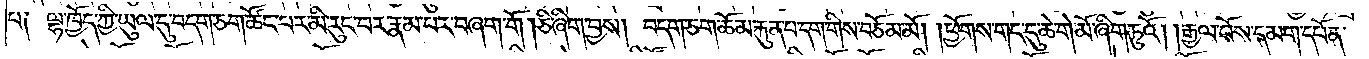པ ༑ ལྷ་ཁྱོད་ཀྱི་ཡུལ་དུ་བདག་ཅག་ཚོང་པར་མི་རུང་བར་རྣམ་པར་བཞག་གོ །ཅི་ཞིག་བྱས། བདག་ཅག་ཆོམ་རྐུན་པ་དག་གིས་བཅོམ་མོ། །ཕྱོགས་གང་དུ་ཆེ་གེ་མེ་ཞིག་ཏུའོ། །རྒྱལ་པོས་དམག་དཔོན་
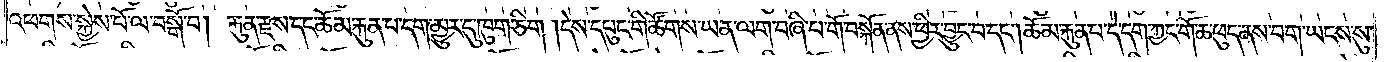འཕགས་སྐྱེས་པོ་ལ་བསྒོ་བ། རྐུན་རྫས་དང་ཆོམ་རྐུན་པ་དག་མྱུར་དུ་ཁུག་ཅིག །དེས་དཔུང་གི་ཚོགས་ཡན་ལག་བཞི་པ་གོ་བསྐོན་ནས་ཕྱིར་བྱུང་བ་དང༌། ཆོམ་རྐུན་པ་དེ་དག་ཀྱང་གོ་ཆ་ཕུད་ནས་བག་ཡངས་སུ་
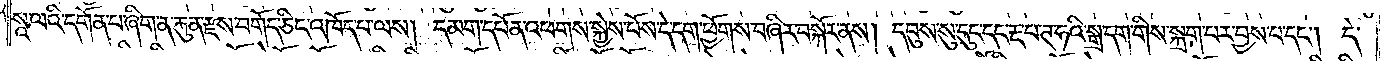སཱ་ལའི་དགོན་པ་ཞིག་ན་རྐུན་རྫས་བགོད་ཅིང་འཁོད་པ་ལས། དམག་དཔོན་འཕགས་སྐྱེས་པོས་དེ་དག་ཕྱོགས་བཞིར་བསྐོར་ནས། དབུས་སུ་དུང་དང་རྔ་པ་ཊ་ཧའི་སྒྲ་དག་གིས་སྐྲག་པར་བྱས་པ་དང༌། དེ་
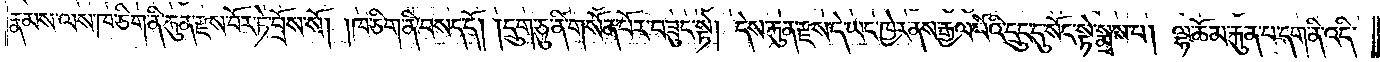རྣམས་ལས་ཁ་ཅིག་ནི་རྐུན་རྫས་བོར་ཏེ་བྲོས་སོ། །ཁ་ཅིག་ནི་བསད་དོ། །དྲུག་ཅུ་ནི་གསོན་པོར་བཟུང་སྟེ། དེས་རྐུན་རྫས་དེ་ཡང་ཁྱེར་ནས་རྒྱལ་པོའི་དྲུང་དུ་སོང་སྟེ་སྨྲས་པ། ལྷ་ཆོམ་རྐུན་པ་དག་ནི་འདི་
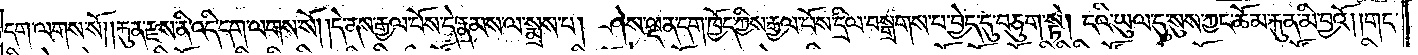དག་ལགས་སོ། །རྐུན་རྫས་ནི་འདི་དག་ལགས་སོ། །དེ་ནས་རྒྱལ་པོས་དེ་རྣམས་ལ་སྨྲས་པ། ཤེས་ལྡན་དག་ཁྱོད་ཀྱིས་རྒྱལ་པོས་དྲིལ་བསྒྲགས་པ་བྱེད་དུ་བཅུག་སྟེ། ངའི་ཡུལ་དུ་སུས་ཀྱང་ཆོམ་རྐུན་མི་བྱའོ། །གང་
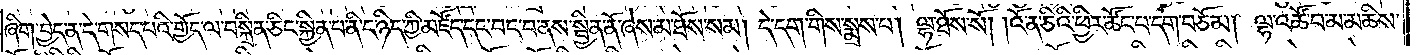ཞིག་བྱེད་ན་དེ་གསད་པའི་གྱོད་ལ་བསྐྲིན་ཅིང་སྐྱིན་པ་ནི་ང་ཉིད་ཀྱི་མཛོད་དང་བང་བ་ནས་སྦྱིན་ནོ་ཞེས་མ་ཐོས་སམ། དེ་དག་གིས་སྨྲས་པ། ལྷ་ཐོས་སོ། །འོ་ན་ཅིའི་ཕྱིར་ཚོང་པ་དག་བཅོམ། ལྷ་འཚོ་བ་མ་མཆིས་
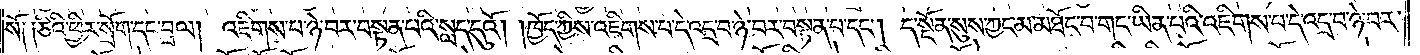སོ༑ ༑ཅིའི་ཕྱིར་སྲོག་དང་བྲལ། འཇིགས་པ་ཉེ་བར་བསྟན་པའི་སླད་དུའོ། །ཁྱོད་ཀྱིས་འཇིགས་པ་དེ་འདྲ་བ་ཉེ་བར་བསྟན་པ་དང༌། ད་སྔོན་སུས་ཀྱང་མ་མཐོང་བ་གང་ཡིན་པའི་འཇིགས་པ་དེ་འདྲ་བ་ཉེ་བར་
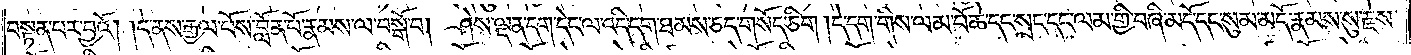བསྟན་པར་བྱའོ། །དེ་ནས་རྒྱལ་པོས་བློན་པོ་རྣམས་ལ་བསྒོ་བ། ཤེས་ལྡན་དག་དེང་ལ་འདི་དག་ཐམས་ཅད་གསོད་ཅིག །དེ་དག་གིས་ལམ་པོ་ཆེ་དང་སྲང་དང་ལམ་གྱི་བཞི་མདོ་དང་སུམ་མདོ་རྣམས་སུ་རྗེས་
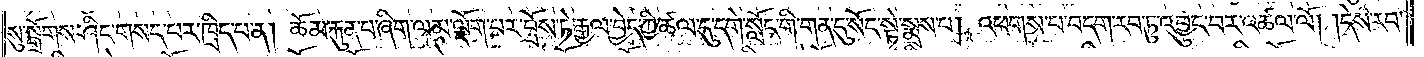སུ་སྒྲོགས་ཤིང་གསད་པར་ཁྲིད་པ་ན། ཆོམ་རྐུན་པ་ཞིག་ལམ་ལྡོག་པར་བྲོས་ཏེ་རྒྱལ་བྱེད་ཀྱི་ཚལ་དུ་དགེ་སློང་གི་གན་དུ་སོང་སྟེ་སྨྲས་པ། འཕགས་པ་བདག་རབ་ཏུ་འབྱུང་བར་འཚལ་ལོ། །དེས་རབ་
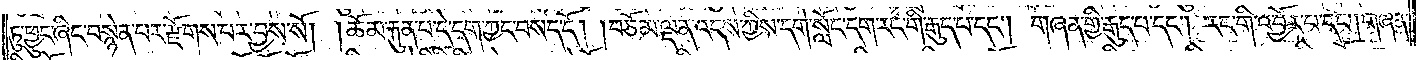ཏུ་ཕྱུང་ཞིང་བསྙེན་པར་རྫོགས་པར་བྱས་སོ། །ཆོམ་རྐུན་པ་དེ་དག་ཀྱང་བསད་དོ། །བཅོམ་ལྡན་འདས་ཀྱིས་དགེ་སློང་དག་རང་གི་རྒུད་པ་དང༌། གཞན་གྱི་རྒུད་པ་དང༌། རང་གི་འབྱོར་པ་དང༌། གཞན་
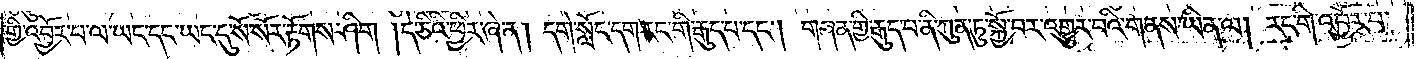གྱི་འབྱོར་པ་ལ་ཡང་དང་ཡང་དུ་སོ་སོར་རྟོགས་ཤིག །དེ་ཅིའི་ཕྱིར་ཞེ་ན། དགེ་སློང་དག་རང་གི་རྒུད་པ་དང༌། གཞན་གྱི་རྒུད་པ་ནི་ཀུན་ཏུ་སྐྱོ་བར་འགྱུར་བའི་གནས་ཡིན་ལ། རང་གི་འབྱོར་བ་
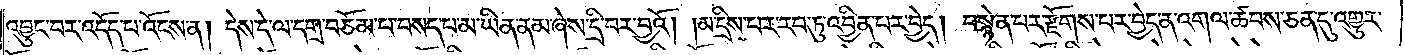འབྱུང་བར་འདོད་པ་འོངས་ན། དེས་དེ་ལ་དགྲ་བཅོམ་པ་བསད་པ་མ་ཡིན་ནམ་ཞེས་དྲི་བར་བྱའོ། །མ་དྲིས་པར་རབ་ཏུ་འབྱིན་པར་བྱེད། བསྙེན་པར་རྫོགས་པར་བྱེད་ན་འགལ་ཚབས་ཅན་དུ་འགྱུར་
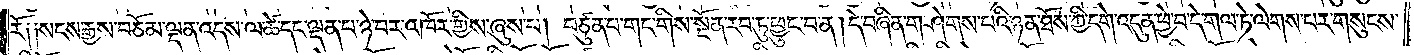རོ༑ ༑སངས་རྒྱས་བཅོམ་ལྡན་འདས་ལ་ཚེ་དང་ལྡན་པ་ཉེ་བར་འཁོར་གྱིས་ཞུས་པ། བཙུན་པ་གང་གི་སྔོན་རབ་ཏུ་ཕྱུང་བ་ན། དེ་བཞིན་གཤེགས་པའི་ཉན་ཐོས་ཀྱི་དགེ་འདུན་ཕྱེ་བ་དེ་གལ་ཏེ་ལེགས་པར་གསུངས་
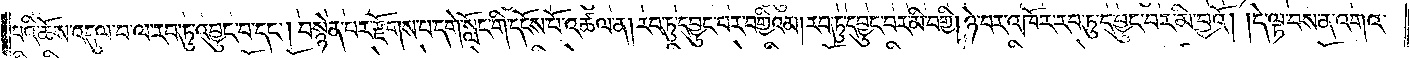པའི་ཆོས་འདུལ་བ་ལ་རབ་ཏུ་འབྱུང་བ་དང༌། བསྙེན་པ་རྫོགས་པ་དགེ་སློང་གི་དངོས་པོ་འཚལ་ན། རབ་ཏུ་དབྱུང་བར་བགྱིའམ། རབ་ཏུ་དབྱུང་བར་མི་བགྱི། ཉེ་བར་འཁོར་རབ་ཏུ་དབྱུང་བར་མི་བྱའོ། །དེ་ལྟ་བས་ན་འགའ་
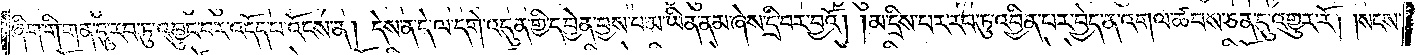ཞིག་གི་གན་དུ་རབ་ཏུ་འབྱུང་བར་འདོད་པ་འོངས་ན། དེས་ན་དེ་ལ་དགེ་འདུན་གྱི་དབྱེན་བྱས་པ་མ་ཡིན་ནམ་ཞེས་དྲི་བར་བྱའོ། །མ་དྲིས་པར་རབ་ཏུ་འབྱིན་པར་བྱེད་ན་འགལ་ཚབས་ཅན་དུ་འགྱུར་རོ། །སངས་
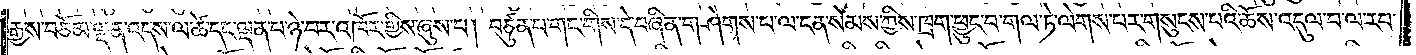རྒྱས་བཅོམ་ལྡན་འདས་ལ་ཚེ་དང་ལྡན་པ་ཉེ་བར་འཁོར་གྱིས་ཞུས་པ། བཙུན་པ་གང་གིས་དེ་བཞིན་གཤེགས་པ་ལ་ངན་སེམས་ཀྱིས་ཁྲག་ཕྱུང་བ་གལ་ཏེ་ལེགས་པར་གསུངས་པའི་ཆོས་འདུལ་བ་ལ་རབ་
